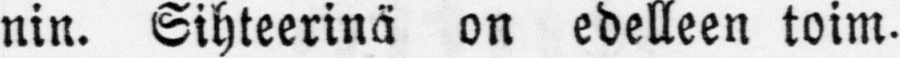nin. Sihteerinä on edelleen toim.
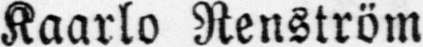Kaarlo Renström.
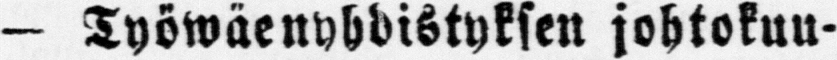— Työwäenyhdistyksen johtokuu-
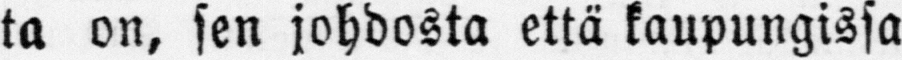ta on, sen johdosta että kaupungissa
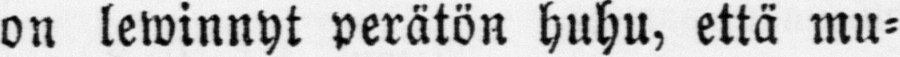on lewinnyt perätön huhu, että mu-
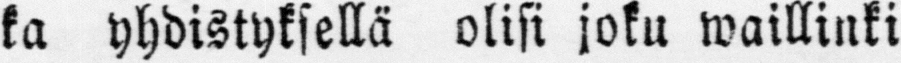ka yhdistyksellä olisi joku waillinki
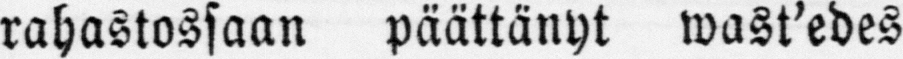rahastossaan päättänyt wast'edes
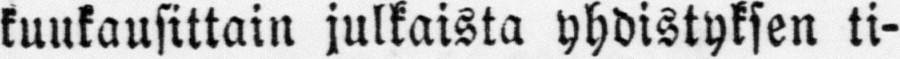kuukausittain julkaista yhdistyksen ti-
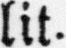lit.
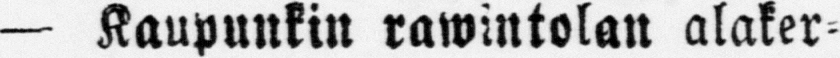— Kaupunkin rawintolan alaker-
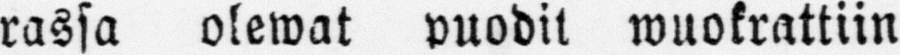rassa olewat puodit wuokrattiin
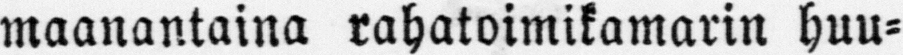maanantaina rahatoimikamarin huu-
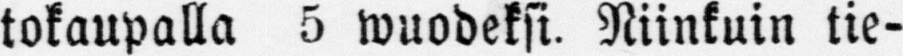tokaupalla 5 wuodoksi. Niinkuin tie-
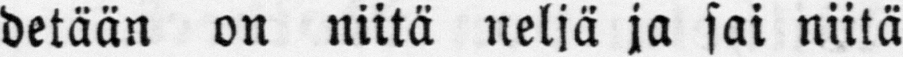detään on niitä neljä ja sai niitä
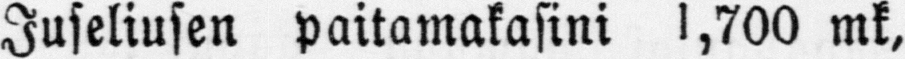Juseliusen paitamakasini 1,700 mk,
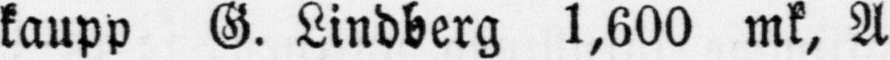kaupp G. Lindberg 1,600 mk, A.
